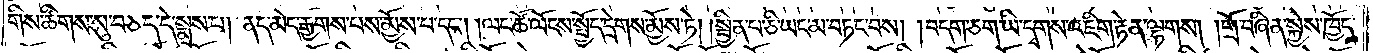གིས་ཚིགས་སུ་བཅད་དེ་སྨྲས་པ། ནད་མེད་རྒྱགས་པས་མྱོས་པ་དང༌། །ལང་ཚོ་ལོངས་སྤྱོད་དྲེགས་མྱོས་ཏེ། །སྦྱིན་པ་ཅི་ཡང་མ་བཏང་བས། །བདག་ཅག་ཡི་དྭགས་འཇིག་རྟེན་ལྷགས། །གྲོ་བཞིན་སྐྱེས་ཁྱོད་
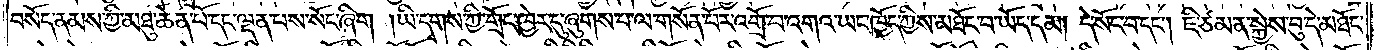བསོད་ནམས་ཀྱི་མཐུ་ཆེན་པོ་དང་ལྡན་པས་སོང་ཞིག །ཡི་དྭགས་ཀྱི་གྲོང་ཁྱེར་དུ་ཞུགས་པ་ལ་གསོན་པོར་འགྲོ་བ་འགའ་ཡང་ཁྱོད་ཀྱིས་མཐོང་བ་ཡོད་དམ། དེ་སོང་བ་དང༌། ཇི་ཙམ་ན་སྐྱེས་བུ་དེ་མཐོང་
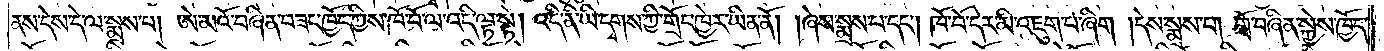ནས་དེས་དེ་ལ་སྨྲས་པ། ཨེ་མའོ་བཞིན་བཟང་ཁྱོད་ཀྱིས་ཁོ་བོ་ལ་འདི་ལྟ་སྟེ། འདི་ནི་ཡི་དྭགས་ཀྱི་གྲོང་ཁྱེར་ཡིན་ནོ། །ཞེས་སྨྲས་པ་དང༌། ཁོ་བོ་དེར་མི་འཇུག་པ་ཞིག །དེས་སྨྲས་བ། གྲོ་བཞིན་སྐྱེས་ཁྱོད་
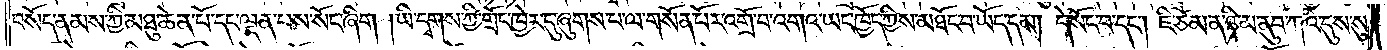བསོད་ནམས་ཀྱི་མཐུ་ཆེན་པོ་དང་ལྡན་པས་སོང་ཞིག །ཡི་དྭགས་ཀྱི་གྲོང་ཁྱེར་དུ་ཞུགས་པ་ལ་གསོན་པོར་འགྲོ་བ་འགའ་ཡང་ཁྱོད་ཀྱིས་མཐོང་བ་ཡོད་དམ། དེ་སོང་བ་དང༌། ཇི་ཙམ་ན་ཉི་མ་ནུབ་ཀའི་དུས་སུ་
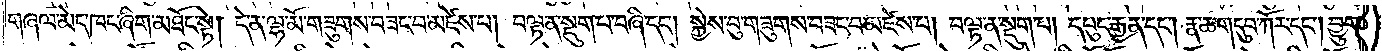གཞལ་མེད་ཁང་ཞིག་མཐོང་སྟེ། དེ་ན་ལྷ་མོ་གཟུགས་བཟང་བ་མཛེས་པ། བལྟ་ན་སྡུག་པ་བཞི་དང༌། སྐྱེས་བུ་གཟུགས་བཟང་བ་མཛེས་པ། བལྟ་ན་སྡུག་པ། དཔུང་རྒྱན་དང༌། རྣ་ཆ་གདུབ་ཀོར་དང༌། བྱུག་
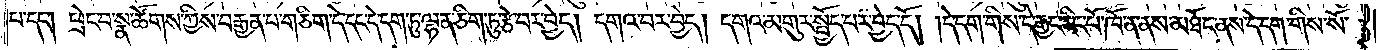པ་དང༌། ཕྲེང་བ་སྣ་ཚོགས་ཀྱིས་བརྒྱན་པ་གཅིག་དེ་དང་དེ་དག་ཏུ་ལྷན་ཅིག་ཏུ་རྩེ་བར་བྱེད། དགའ་བར་བྱེད། དགའ་མགུར་སྤྱོད་པར་བྱེད་དོ། །དེ་དག་གིས་དེ་རྒྱང་རིང་པོ་ཁོ་ན་ནས་མཐོང་ནས་དེ་དག་གིས་སོ་
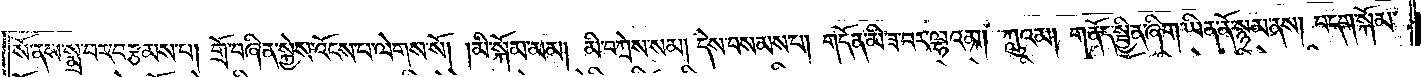སོ་ནས་སྨྲ་བར་བརྩམས་པ། གྲོ་བཞིན་སྐྱེས་འོངས་པ་ལེགས་སོ། །མི་སྐོམ་མམ། མི་བཀྲེས་སམ། དེས་བསམས་པ། གདོན་མི་ཟ་བར་ལྷའམ། ཀླུའམ། གནོད་སྦྱིན་ཞིག་ཡིན་ནོ་སྙམ་ནས། བདག་སྐོམ་
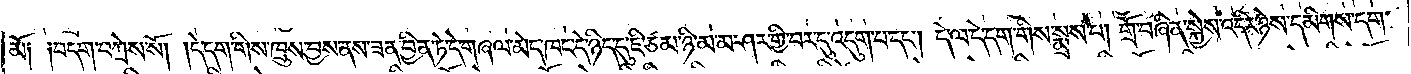མོ༑ ༑བདག་བཀྲེས་སོ། །དེ་དག་གིས་ཁྲུས་བྱས་ནས་ཟན་བྱིན་ཏེ་དེ་གཞལ་མེད་ཁང་དེ་ཉིད་དུ་ཇི་ཙམ་ཉི་མ་མ་ཤར་གྱི་བར་དུ་འདུག་པ་དང༌། དེ་ལ་དེ་དག་གིས་སྨྲས་པ། གྲོ་བཞིན་སྐྱེས་འདིར་ཉེས་དམིགས་དག་
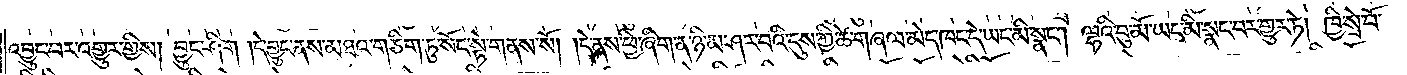འབྱུང་བར་འགྱུར་གྱིས། བྱུང་ཤིག །དེ་བྱུང་ནས་མཐའ་གཅིག་ཏུ་སོང་སྟེ་གནས་སོ། །དེ་ནས་ཕྱི་ཞིག་ན་ཉི་མ་ཤར་བའི་དུས་ཀྱི་ཚེ་གཞལ་མེད་ཁང་དེ་ཡང་མི་སྣང༌། ལྷའི་བུ་མོ་ཡང་མི་སྣང་བར་གྱུར་ཏེ། ཁྱི་སྲེ་བོ་
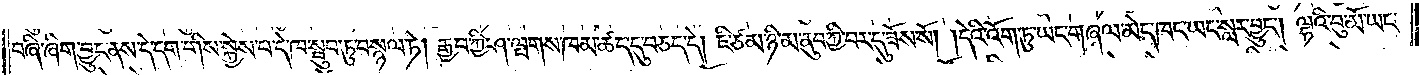བཞི་ཞིག་བྱུང་ནས་དེ་དག་གིས་སྐྱེས་པ་དེ་ཁ་སྦུབ་ཏུ་བསྙལ་ཏེ། རྒྱབ་ཀྱི་ཤ་ལྤགས་ཁམ་ཚད་དུ་བཅད་དེ། ཇི་ཙམ་ཉི་མ་ནུབ་ཀྱི་བར་དུ་ཟོས་སོ། །དེའི་འོག་ཏུ་ཡང་གཞལ་མེད་ཁང་ཡང་སླར་བྱུང༌། ལྷའི་བུ་མོ་ཡང་
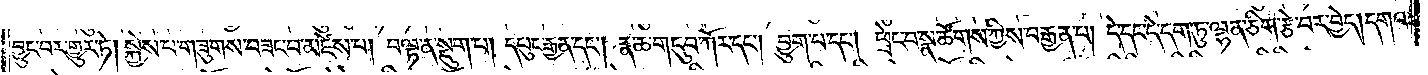བྱུང་བར་གྱུར་ཏེ། སྐྱེས་པ་གཟུགས་བཟང་བ་མཛེས་པ། བལྟ་ན་སྡུག་པ། དཔུང་རྒྱན་དང༌། རྣ་ཆ་གདུབ་ཀོར་དང༌། བྱུག་པ་དང༌། ཕྲེང་བ་སྣ་ཚོགས་ཀྱིས་བརྒྱན་པ། དེ་དང་དེ་དག་ཏུ་ལྷན་ཅིག་རྩེ་བར་བྱེད། དགའ་
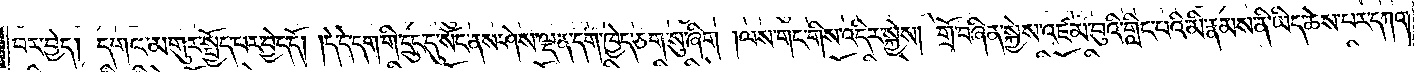བར་བྱེད། དགའ་མགུར་སྤྱོད་པར་བྱེད་དོ། །དེ་དེ་དག་གི་དྲུང་དུ་སོང་ནས་ཤེས་ལྡན་དག་ཁྱེད་ཅག་སུ་ཞིག །ལས་གང་གིས་འདིར་སྐྱེས། གྲོ་བཞིན་སྐྱེས་འཛམ་བུའི་གླིང་པའི་མི་རྣམས་ནི་ཡིད་ཆེས་པར་དཀའ་
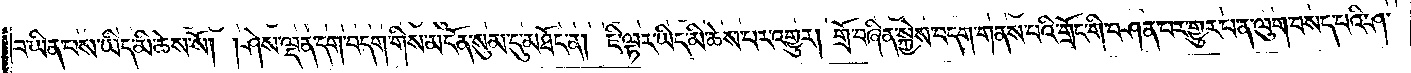བ་ཡིན་པས་ཡིད་མི་ཆེས་སོ། །ཤེས་ལྡན་དག་བདག་གིས་མངོན་སུམ་དུ་མཐོང་ན། ཇི་ལྟར་ཡིད་མི་ཆེས་པར་འགྱུར། གྲོ་བཞིན་སྐྱེས་བདག་གནས་པའི་གྲོང་གི་བཤན་པར་གྱུར་པ་ན་ལུག་བསད་པའི་ཤ་
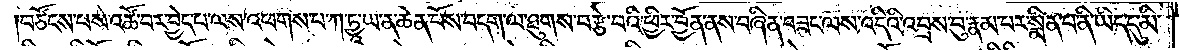བཙོངས་པས་འཚོ་བར་བྱེད་པ་ལས་འཕགས་པ་ཀ་ཏྱཱ་ཡ་ན་ཆེན་པོས་བདག་ལ་ཐུགས་བརྩེ་བའི་ཕྱིར་བྱོན་ནས་བཞིན་བཟང་ལས་འདིའི་འབྲས་བུ་རྣམ་པར་སྨིན་བ་ནི་ཡིད་དུ་མི་
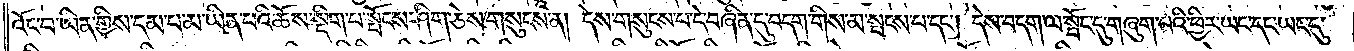འོང་བ་ཡིན་གྱིས་དམ་པ་མ་ཡིན་པའི་ཆོས་སྡིག་པ་སྤོངས་ཤིག་ཅེས་གསུངས་ན། དེས་གསུངས་པ་དེ་བཞིན་དུ་བདག་གིས་མ་སྤངས་པ་དང༌། དེས་བདག་ལ་སྤོང་དུ་གཞུག་པའི་ཕྱིར་ཡང་དང་ཡང་དུ་
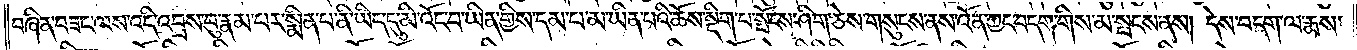བཞིན་བཟང་ལས་འདི་འབྲས་བུ་རྣམ་པར་སྨིན་པ་ནི་ཡིད་དུ་མི་འོང་བ་ཡིན་གྱིས་དམ་པ་མ་ཡིན་པའི་ཆོས་སྡིག་པ་སྤོངས་ཤིག་ཅེས་གསུངས་ནས་འོན་ཀྱང་བདག་གིས་མ་སྤངས་ནས། དེས་བདག་ལ་རྨས་
